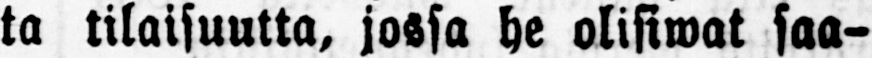ta tilaisuutta, jossa he olisiwat saa-
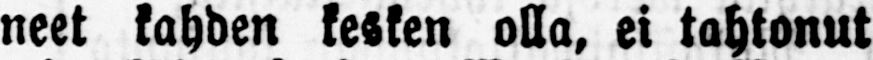neet kahden kesken olla, ei tahtonut
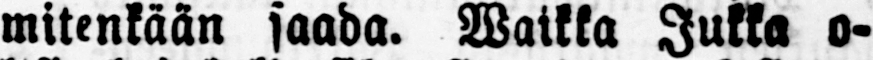mitenkään saada. Waikka Jukka o-
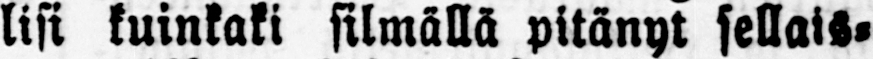lisi kuinkaki silmällä pitänyt sellais-
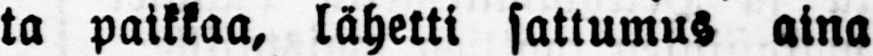ta paikkaa, lähetti sattumus aina
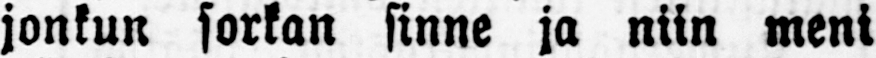jonkun sorkan sinne ja niin meni
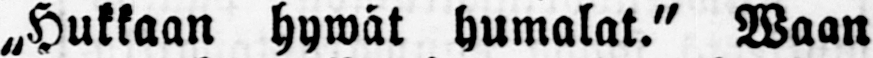Hukkaan hywät humalat." Waan
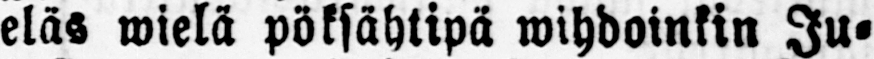eläs wielä pöksähtipä wihdoinkin Ju-
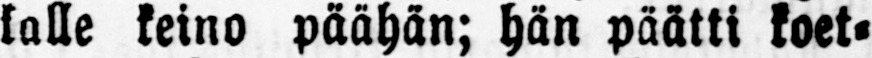kalle keino päähän; hän päätti koet-
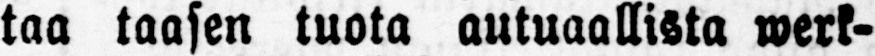taa taasen tuota autuaallista werk-
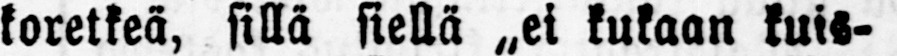koretkeä, sillä siell „ei kukaan kuis-
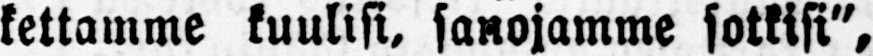kettamme kuulisi, sanojamme sotkisi",
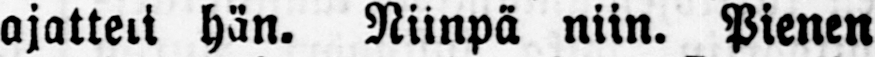ajatteli hän. Niinpä niin. Pienen
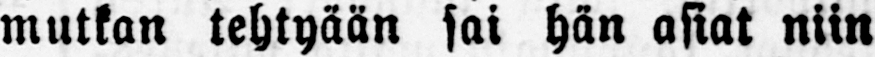mutkan tehtyään sai hän asiat niin
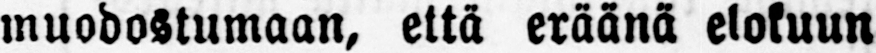muodostumaan, että eräänä elokuun
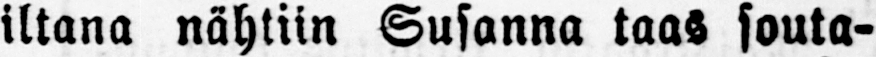iltana nähtiin Susanna taas souta-
